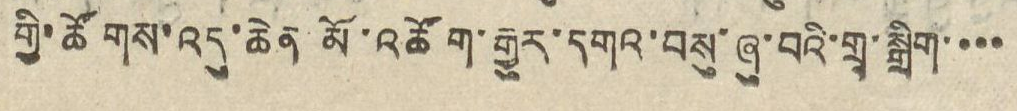གྱི་ཚོགས་འདུ་ཆེན་མོ་མཆོག་རྒྱུར་དགའ་བསུ་ཞུ་བའི་གྲྭ་སྒྲིག་་་་
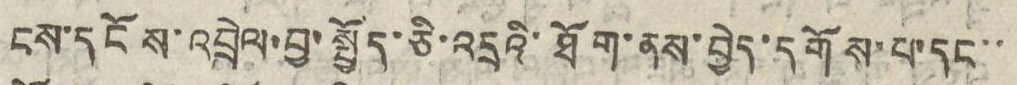ངས་དངོས་འབྲེལ་བྱ་སྤྱོད་ཅི་འདྲའི་ཐོག་ནས་བྱེད་དགོས་པ་དང་་
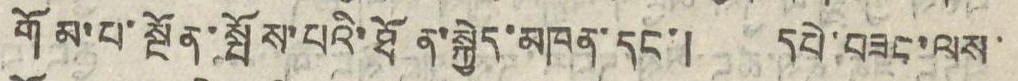གོམ་པ་སྔོན་སྤོས་པའི་ཐོན་སྐྱེད་མཁན་དང་། དཔེ་བཟང་ལས་
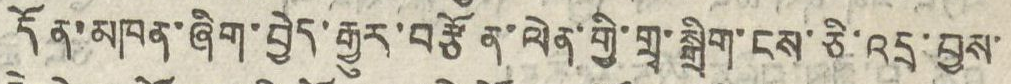དོན་མཁན་ཞིག་བྱེད་རྒྱུར་བརྩོན་ལེན་གྱི་གྲྭ་སྒྲིག་ངས་ཅི་འདྲ་བྱས་
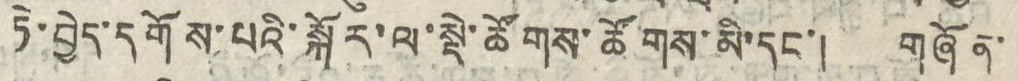ཏེ་བྱེད་དགོས་པའི་སྐོར་ལ་སྡེ་ཚོགས་ཚོགས་མི་དང་། གཞོན་
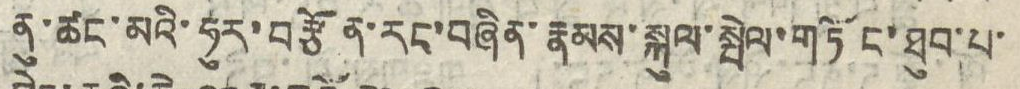ནུ་ཚང་མའི་ཧུར་བརྩོན་རང་བཞིན་རྣམས་སྐུལ་སྤེལ་གཏོང་ཐུབ་པ་
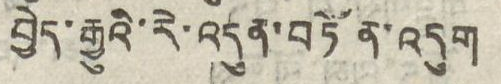བྱེད་རྒྱུའི་རེ་འདུན་བཏོན་འདུག
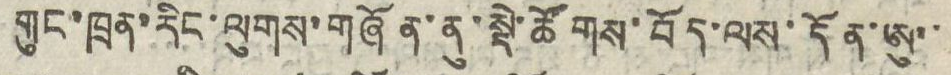གུང་ཁྲན་རིང་ལུགས་གཞོན་ནུ་སྡེ་ཚོགས་བོད་ལས་དོན་ཨུ་་
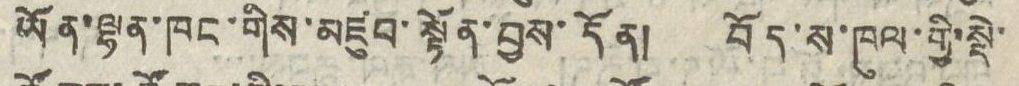ཡོན་ལྷན་ཁང་གིས་མཛུབ་སྟོན་བྱས་དོན། བོད་ས་ཁུལ་གྱི་སྡེ་
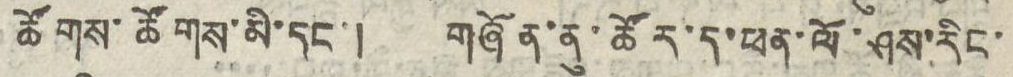ཚོགས་ཚོགས་མི་དང་། གཞོན་ནུ་ཚོར་ད་ཕན་ལོ་ཤས་རིང་
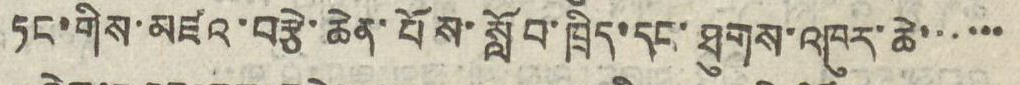ཏང་གིས་མཛའ་བརྩེ་ཆེན་པོས་སློབ་ཁྲིད་དང་ཐུགས་འཁུར་ཆེ་་་་་་
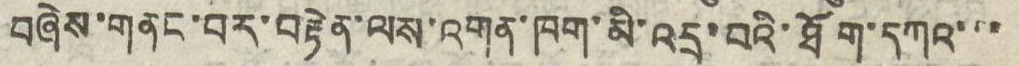བཞེས་གནང་བར་བརྟེན་ལས་འགན་ཁག་མི་འདྲ་བའི་ཐོག་དཀའ་་་
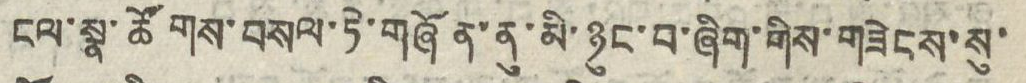ངལ་སྣ་ཚོགས་བསལ་ཏེ་གཞོན་ནུ་མི་ཉུང་བ་ཞིག་གིས་གཟེངས་སུ་
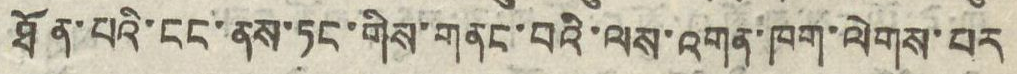ཐོན་པའི་ངང་ནས་ཏང་གིས་གནང་བའི་ལས་འགན་ཁག་ལེགས་པར
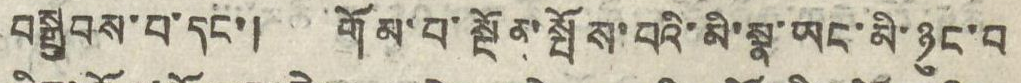བསྒྲུབས་པ་དང་། གོམ་པ་སྔོན་སྤོས་པའི་མི་སྣ་ཡང་མི་ཉུང་བ
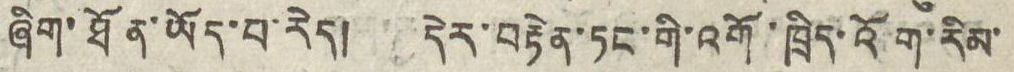ཞིག་ཐོན་ཡོད་པ་རེད། དེར་བརྟེན་ཏང་གི་འགོ་ཁྲིད་འོག་རིམ་
